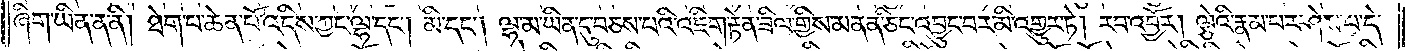ཞིག་ཡིན་ན་ནི། ཐེག་པ་ཆེན་པོ་འདིས་ཀྱང་ལྷ་དང༌། མི་དང༌། ལྷ་མ་ཡིན་དུ་བཅས་པའི་འཇིག་རྟེན་ཟིལ་གྱིས་མནན་ཅིང་འབྱུང་བར་མི་འགྱུར་ཏེ། རབ་འབྱོར། ལྕེའི་རྣམ་པར་ཤེས་པ་དེ་
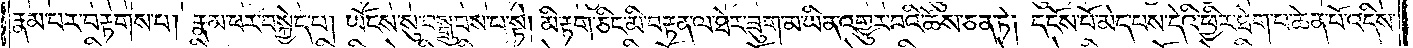རྣམ་པར་བརྟགས་པ། རྣམ་པར་བསྐྱེད་པ། ཡོངས་སུ་བསྒྲུབས་པ་སྟེ། མི་རྟག་ཅིང་མི་བརྟན་ལ་ཐེར་ཟུག་མ་ཡིན་འགྱུར་པའི་ཆོས་ཅན་ཏེ། དངོས་པོ་མེད་པས་དེའི་ཕྱིར་ཐེག་པ་ཆེན་པོ་འདིས་
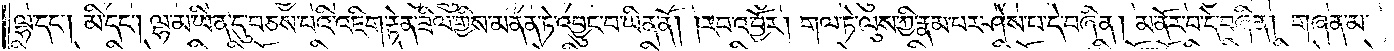ལྷ་དང༌། མི་དང༌། ལྷ་མ་ཡིན་དུ་བཅས་པའི་འཇིག་རྟེན་ཟིལ་གྱིས་མནན་ཏེ་འབྱུང་བ་ཡིན་ནོ། །རབ་འབྱོར། གལ་ཏེ་ལུས་ཀྱི་རྣམ་པར་ཤེས་པ་དེ་བཞིན། མ་ནོར་བ་དེ་བཞིན། གཞན་མ་
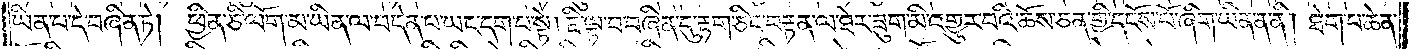ཡིན་པ་དེ་བཞིན་ཏེ། ཕྱིན་ཅི་ལོག་མ་ཡིན་ལ་བདེན་པ་ཡང་དག་པ་སྟེ། ཇི་ལྟ་བ་བཞིན་དུ་རྟག་ཅིང་བརྟན་ལ་ཐེར་ཟུག་མི་འགྱུར་བའི་ཆོས་ཅན་གྱི་དངོས་པོ་ཞིག་ཡིན་ན་ནི། ཐེག་པ་ཆེན་
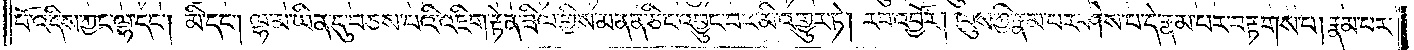པོ་འདིས་ཀྱང་ལྷ་དང༌། མི་དང༌། ལྷ་མ་ཡིན་དུ་བཅས་པའི་འཇིག་རྟེན་ཟིལ་གྱིས་མནན་ཅིང་འབྱུང་བར་མི་འགྱུར་ཏེ། རབ་འབྱོར། ལུས་ཀྱི་རྣམ་པར་ཤེས་པ་དེ་རྣམ་པར་བརྟགས་པ། རྣམ་པར་
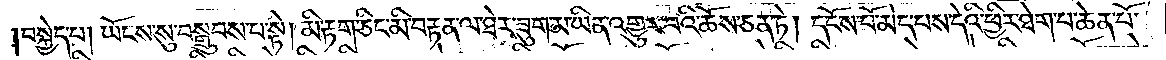བསྐྱེད་པ། ཡོངས་སུ་བསྒྲུབས་པ་སྟེ། མི་རྟག་ཅིང་མི་བརྟན་ལ་ཐེར་ཟུག་མ་ཡིན་འགྱུར་བའི་ཆོས་ཅན་ཏེ། དངོས་པོ་མེད་པས་དེའི་ཕྱིར་ཐེག་པ་ཆེན་པོ་
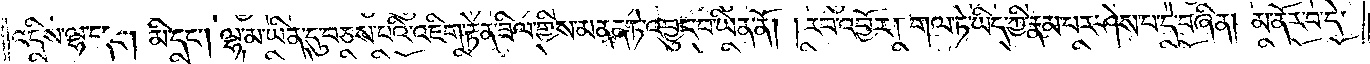འདིས་ལྷ་དང༌། མི་དང༌། ལྷ་མ་ཡིན་དུ་བཅས་པའི་འཇིག་རྟེན་ཟིལ་གྱིས་མནན་ཏེ་འབྱུང་བ་ཡིན་ནོ། །རབ་འབྱོར། གལ་ཏེ་ཡིད་ཀྱི་རྣམ་པར་ཤེས་པ་དེ་བཞིན། མ་ནོར་བ་དེ་
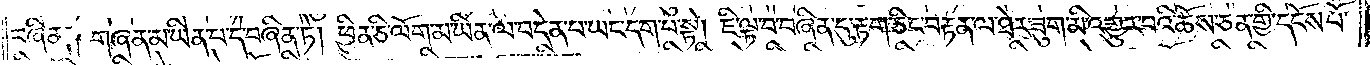བཞིན། གཞན་མ་ཡིན་པ་དེ་བཞིན་ཏེ། ཕྱིན་ཅི་ལོག་མ་ཡིན་ལ་བདེན་པ་ཡང་དག་པ་སྟེ། ཇི་ལྟ་བ་བཞིན་དུ་རྟག་ཅིང་བརྟན་ལ་ཐེར་ཟུག་མི་འགྱུར་བའི་ཆོས་ཅན་གྱི་དངོས་པོ་
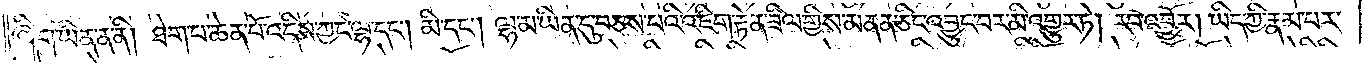ཞིག་ཡིན་ན་ནི། ཐེག་པ་ཆེན་པོ་འདིས་ཀྱང་ལྷ་དང༌། མི་དང༌། ལྷ་མ་ཡིན་དུ་བཅས་པའི་འཇིག་རྟེན་ཟིལ་གྱིས་མནན་ཅིང་འབྱུང་བར་མི་འགྱུར་ཏེ། རབ་འབྱོར། ཡིད་ཀྱི་རྣམ་པར་
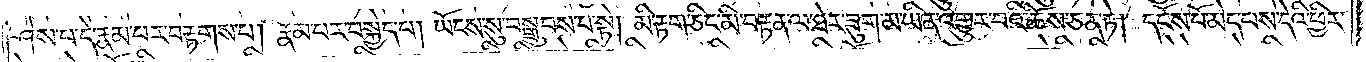ཤེས་པ་དེ་རྣམ་པར་བརྟགས་པ། རྣམ་པར་བསྐྱེད་པ། ཡོངས་སུ་བསྒྲུབས་པ་སྟེ། མི་རྟག་ཅིང་མི་བརྟན་ལ་ཐེར་ཟུག་མ་ཡིན་འགྱུར་བའི་ཆོས་ཅན་ཏེ། དངོས་པོ་མེད་པས་དེའི་ཕྱིར་
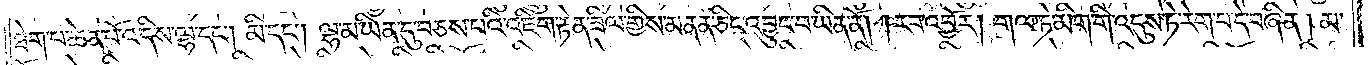ཐེག་པ་ཆེན་པོ་འདིས་ལྷ་དང༌། མི་དང༌། ལྷ་མ་ཡིན་དུ་བཅས་པའི་འཇིག་རྟེན་ཟིལ་གྱིས་མནན་ཅིང་འབྱུང་བ་ཡིན་ནོ། །རབ་འབྱོར། གལ་ཏེ་མིག་གི་འདུས་ཏེ་རེག་པ་དེ་བཞིན། མ་
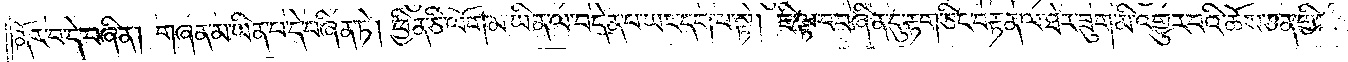ནོར་བ་དེ་བཞི་ན། གཞན་མ་ཡིན་པ་དེ་བཞིན་ཏེ། ཕྱིན་ཅི་ལོག་མ་ཡིན་ལ་བདེན་པ་ཡང་དག་པ་སྟེ། ཇི་ལྟ་བ་བཞིན་དུ་རྟག་ཅིང་བརྟན་ལ་ཐེར་ཟུག་མི་འགྱུར་བའི་ཆོས་ཅན་གྱི་
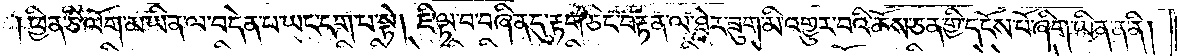ཕྱིན་ཅི་ལོག་མ་ཡིན་ལ་བདེན་པ་ཡང་དག་པ་སྟེ། ཇི་ལྟ་བ་བཞིན་དུ་རྟག་ཅིང་བརྟན་ལ་ཐེར་ཟུག་མི་འགྱུར་བའི་ཆོས་ཅན་གྱི་དངོས་པོ་ཞིག་ཡིན་ན་ནི།
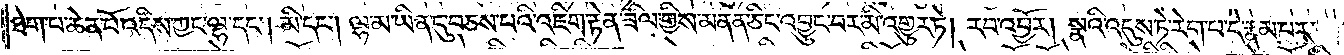ཐེག་པ་ཆེན་པོ་འདིས་ཀྱང་ལྷ་དང༌། མི་དང༌། ལྷ་མ་ཡིན་དུ་བཅས་པའི་འཇིག་རྟེན་ཟིལ་གྱིས་མནན་ཅིང་འབྱུང་བར་མི་འགྱུར་ཏེ། རབ་འབྱོར། སྣའི་འདུས་ཏེ་རེག་པ་དེ་རྣམ་པར་
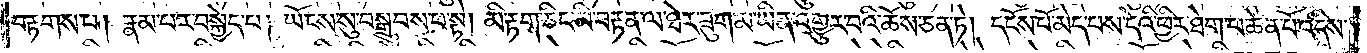བརྟགས་པ། རྣམ་པར་བསྐྱེད་པ། ཡོངས་སུ་བསྒྲུབས་པ་སྟེ། མི་རྟག་ཅིང་མི་བརྟན་ལ་ཐེར་ཟུག་མ་ཡིན་འགྱུར་བའི་ཆོས་ཅན་ཏེ། དངོས་པོ་མེད་པས་དེའི་ཕྱིར་ཐེག་པ་ཆེན་པོ་འདིས།
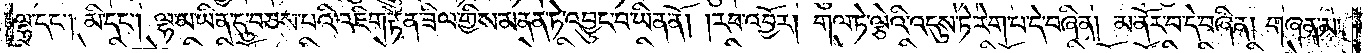ལྷ་དང༌། མི་དང༌། ལྷ་མ་ཡིན་དུ་བཅས་པའི་འཇིག་རྟེན་ཟིལ་གྱིས་མནན་ཏེ་འབྱུང་བ་ཡིན་ནོ། །རབ་འབྱོར། གལ་ཏེ་ལྕེའི་འདུས་ཏེ་རེག་པ་དེ་བཞིན། མ་ནོར་བ་དེ་བཞིན། གཞན་མ་
